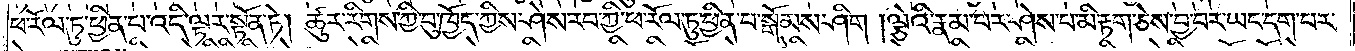ཕ་རོལ་ཏུ་ཕྱིན་པ་འདི་ལྟར་སྟོན་ཏེ། ཚུར་རིགས་ཀྱི་བུ་ཁྱོད་ཀྱིས་ཤེས་རབ་ཀྱི་ཕ་རོལ་ཏུ་ཕྱིན་པ་སྒོམས་ཤིག །ལྕེའི་རྣམ་པར་ཤེས་པ་མི་རྟག་ཅེས་བྱ་བར་ཡང་དག་པར་
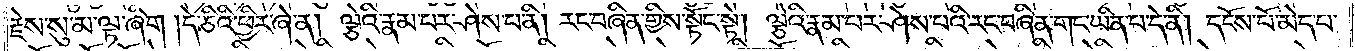རྗེས་སུ་མ་ལྟ་ཞིག །དེ་ཅིའི་ཕྱིར་ཞེ་ན། ལྕེའི་རྣམ་པར་ཤེས་པ་ནི། རང་བཞིན་གྱིས་སྟོང་སྟེ། ལྕེའི་རྣམ་པར་ཤེས་པའི་རང་བཞིན་གང་ཡིན་པ་དེ་ནི། དངོས་པོ་མེད་པ་
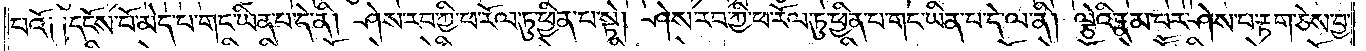པའོ༑ ༑དངོས་པོ་མེད་པ་གང་ཡིན་པ་དེ་ནི། ཤེས་རབ་ཀྱི་ཕ་རོལ་ཏུ་ཕྱིན་པ་སྟེ། ཤེས་རབ་ཀྱི་ཕ་རོལ་ཏུ་ཕྱིན་པ་གང་ཡིན་པ་དེ་ལ་ནི། ལྕེའི་རྣམ་པར་ཤེས་པ་རྟག་ཅེས་བྱ་
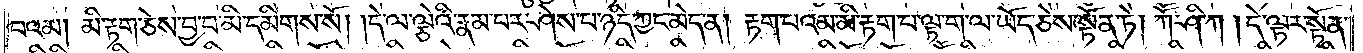བའམ། མི་རྟག་ཅེས་བྱ་བ་མི་དམིགས་སོ། །དེ་ལ་ལྕེའི་རྣམ་པར་ཤེས་པ་ཉིད་ཀྱང་མེད་ན། རྟག་པའམ་མི་རྟག་པ་ལྟ་ག་ལ་ཡོད་ཅེས་སྟོན་ཏེ། ཀཽ་ཤི་ཀ། དེ་ལྟར་སྟོན་
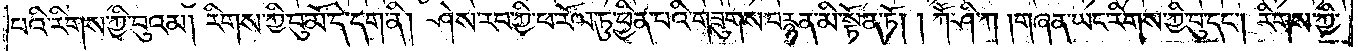པའི་རིགས་ཀྱི་བུའམ། རིགས་ཀྱི་བུ་མོ་དེ་དག་ནི། ཤེས་རབ་ཀྱི་ཕ་རོལ་ཏུ་ཕྱིན་པའི་གཟུགས་བརྙན་མི་སྟོན་ཏོ། །ཀཽ་ཤི་ཀ། གཞན་ཡང་རིགས་ཀྱི་བུ་དང༌། རིགས་ཀྱི་
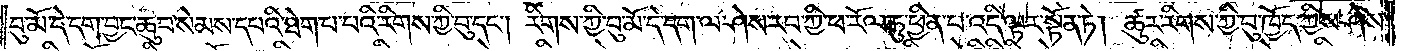བུ་མོ་དེ་དག་བྱང་ཆུབ་སེམས་དཔའི་ཐེག་པ་པའི་རིགས་ཀྱི་བུ་དང༌། རིགས་ཀྱི་བུ་མོ་དེ་དག་ལ་ཤེས་རབ་ཀྱི་ཕ་རོལ་ཏུ་ཕྱིན་པ་འདི་ལྟར་སྟོན་ཏེ། ཚུར་རིགས་ཀྱི་བུ་ཁྱོད་ཀྱིས་ཤེས་
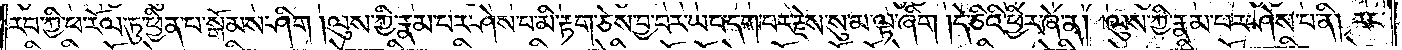རབ་ཀྱི་ཕ་རོལ་ཏུ་ཕྱིན་པ་སྒོམས་ཤིག །ལུས་ཀྱི་རྣམ་པར་ཤེས་པ་མི་རྟག་ཅེས་བྱ་བར་ཡང་དག་པར་རྗེས་སུ་མ་ལྟ་ཞིག །དེ་ཅིའི་ཕྱིར་ཞེ་ན། ལུས་ཀྱི་རྣམ་པར་ཤེས་པ་ནི། རང་
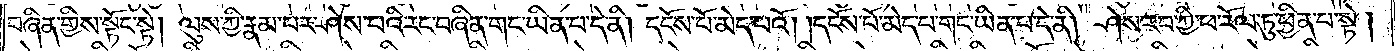བཞིན་གྱིས་སྟོང་སྟེ། ལུས་ཀྱི་རྣམ་པར་ཤེས་པའི་རང་བཞིན་གང་ཡིན་པ་དེ་ནི། དངོས་པོ་མེད་པའོ། །དངོས་པོ་མེད་པ་གང་ཡིན་པ་དེ་ནི། ཤེས་རབ་ཀྱི་ཕ་རོལ་ཏུ་ཕྱིན་པ་སྟེ།
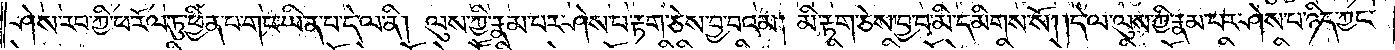ཤེས་རབ་ཀྱི་ཕ་རོལ་ཏུ་ཕྱིན་པ་གང་ཡིན་པ་དེ་ལ་ནི། ལུས་ཀྱི་རྣམ་པར་ཤེས་པ་རྟག་ཅེས་བྱ་བའམ། མི་རྟག་ཅེས་བྱ་བ་མི་དམིགས་སོ། །དེ་ལ་ལུས་ཀྱི་རྣམ་པར་ཤེས་པ་ཉིད་ཀྱང་
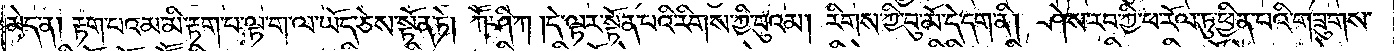མེད་ན། རྟག་པའམ་མི་རྟག་པ་ལྟ་ག་ལ་ཡོད་ཅེས་སྟོན་ཏེ། ཀཽ་ཤི་ཀ །དེ་ལྟར་སྟོན་པའི་རིགས་ཀྱི་བུའམ། རིགས་ཀྱི་བུ་མོ་དེ་དག་ནི། ཤེས་རབ་ཀྱི་ཕ་རོལ་ཏུ་ཕྱིན་པའི་གཟུགས་
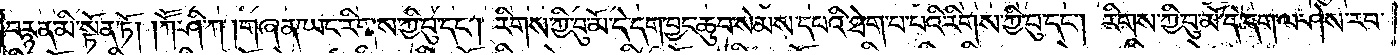བརྙན་མི་སྟོན་ཏོ། །ཀཽ་ཤི་ཀ། གཞན་ཡང་རིགས་ཀྱི་བུ་དང༌། རིགས་ཀྱི་བུ་མོ་དེ་དག་བྱང་ཆུབ་སེམས་དཔའི་ཐེག་པ་པའི་རིགས་ཀྱི་བུ་དང༌། རིགས་ཀྱི་བུ་མོ་དེ་དག་ལ་ཤེས་རབ་
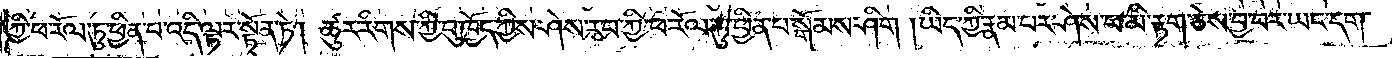ཀྱི་ཕ་རོལ་ཏུ་ཕྱིན་པ་འདི་ལྟར་སྟོན་ཏེ། ཚུར་རིགས་ཀྱི་བུ་ཁྱོད་ཀྱིས་ཤེས་རབ་ཀྱི་ཕ་རོལ་ཏུ་ཕྱིན་པ་སྒོམས་ཤིག །ཡིད་ཀྱི་རྣམ་པར་ཤེས་པ་མི་རྟག་ཅེས་བྱ་བར་ཡང་དག་
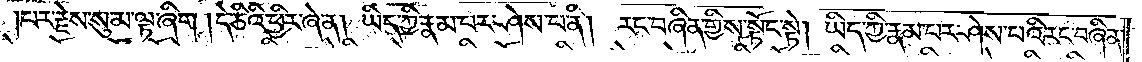པར་རྗེས་སུ་མ་ལྟ་ཞིག །དེ་ཅིའི་ཕྱིར་ཞེ་ན། ཡིད་ཀྱི་རྣམ་པར་ཤེས་པ་ནི། རང་བཞིན་གྱིས་སྟོང་སྟེ། ཡིད་ཀྱི་རྣམ་པར་ཤེས་པའི་རང་བཞིན་
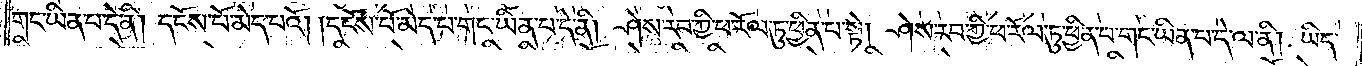གང་ཡིན་པ་དེ་ནི། དངོས་པོ་མེད་པའོ། །དངོས་པོ་མེད་པ་གང་ཡིན་པ་དེ་ནི། ཤེས་རབ་ཀྱི་ཕ་རོལ་ཏུ་ཕྱིན་པ་སྟེ། ཤེས་རབ་ཀྱི་ཕ་རོལ་ཏུ་ཕྱིན་པ་གང་ཡིན་པ་དེ་ལ་ནི། ཡིད་
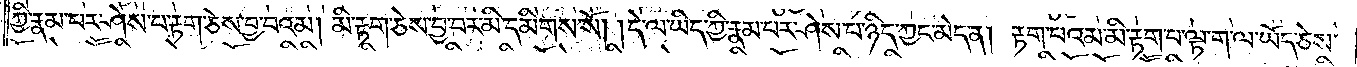ཀྱི་རྣམ་པར་ཤེས་པ་རྟག་ཅེས་བྱ་བའམ། མི་རྟག་ཅེས་བྱ་བ་མི་དམིགས་སོ། །དེ་ལ་ཡིད་ཀྱི་རྣམ་པར་ཤེས་པ་ཉིད་ཀྱང་མེད་ན། རྟག་པའམ་མི་རྟག་པ་ལྟ་ག་ལ་ཡོད་ཅེས་
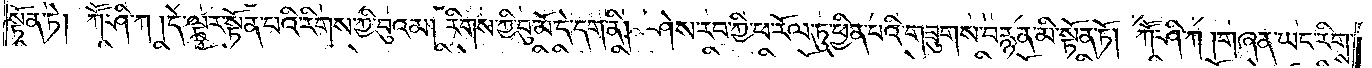སྟོན་ཏེ། ཀཽ་ཤི་ཀ། དེ་ལྟར་སྟོན་པའི་རིགས་ཀྱི་བུའམ། རིགས་ཀྱི་བུ་མོ་དེ་དག་ནི། ཤེས་རབ་ཀྱི་ཕ་རོལ་ཏུ་ཕྱིན་པའི་གཟུགས་བརྙན་མི་སྟོན་ཏོ། །ཀཽ་ཤི་ཀ། གཞན་ཡང་རིགས་
